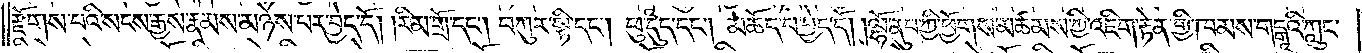རྫོགས་པའི་སངས་རྒྱས་རྣམས་མཉེས་པར་བྱེད་དོ། །རིམ་གྲོ་དང༌། བཀུར་སྟི་དང༌། ཕུ་དུད་དང༌། མཆོད་པ་བྱེད་དོ། །ལྷོ་ནུབ་ཀྱི་ཕྱོགས་མཚམས་ཀྱི་འཇིག་རྟེན་གྱི་ཁམས་གངྒཱའི་ཀླུང་
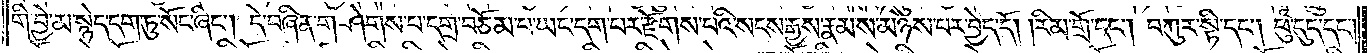གི་བྱེ་མ་སྙེད་དག་ཏུ་སོང་ཞིང༌། དེ་བཞིན་གཤེགས་པ་དགྲ་བཅོམ་པ་ཡང་དག་པར་རྫོགས་པའི་སངས་རྒྱས་རྣམས་མཉེས་པར་བྱེད་དོ། །རིམ་གྲོ་དང༌། བཀུར་སྟི་དང༌། ཕུ་དུད་དང༌།
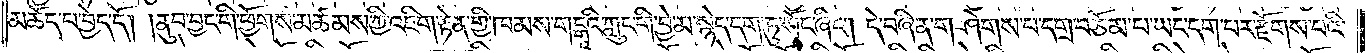མཆོད་པ་བྱེད་དོ། །ནུབ་བྱང་གི་ཕྱོགས་མཚམས་ཀྱི་འཇིག་རྟེན་གྱི་ཁམས་གངྒཱའི་ཀླུང་གི་བྱེ་མ་སྙེད་དག་ཏུ་སོང་ཞིང༌། དེ་བཞིན་གཤེགས་པ་དགྲ་བཅོམ་པ་ཡང་དག་པར་རྫོགས་པའི་
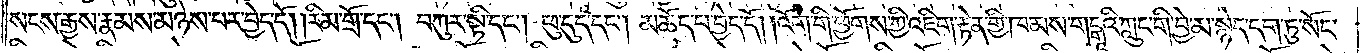སངས་རྒྱས་རྣམས་མཉེས་པར་བྱེད་དོ། །རིམ་གྲོ་དང༌། བཀུར་སྟི་དང༌། ཕུ་དུད་དང༌། མཆོད་པ་བྱེད་དོ། །འོག་གི་ཕྱོགས་ཀྱི་འཇིག་རྟེན་གྱི་ཁམས་གངྒཱའི་ཀླུང་གི་བྱེ་མ་སྙེད་དག་ཏུ་སོང་
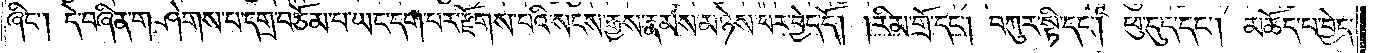ཞིང་༑ དེ་བཞིན་གཤེགས་པ་དགྲ་བཅོམ་པ་ཡང་དག་པར་རྫོགས་པའི་སངས་རྒྱས་རྣམས་མཉེས་པར་བྱེད་དོ། །རིམ་གྲོ་དང༌། བཀུར་སྟི་དང༌། ཕུ་དུད་དང༌། མཆོད་པ་བྱེད་
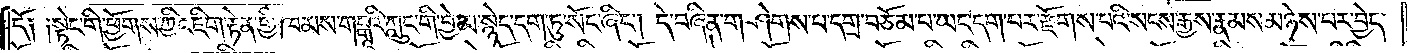དོ༑ ༑སྟེང་གི་ཕྱོགས་ཀྱི་འཇིག་རྟེན་གྱི་ཁམས་གངྒཱའི་ཀླུང་གི་བྱེ་མ་སྙེད་དག་ཏུ་སོང་ཞིང༌། དེ་བཞིན་གཤེགས་པ་དགྲ་བཅོམ་པ་ཡང་དག་པར་རྫོགས་པའི་སངས་རྒྱས་རྣམས་མཉེས་པར་བྱེད་
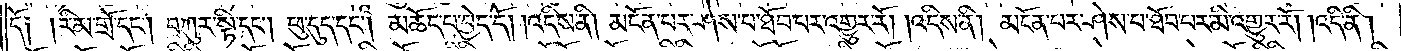དོ༑ །རིམ་གྲོ་དང༌། བཀུར་སྟི་དང༌། ཕུ་དུད་དང༌། མཆོད་པ་བྱེད་དོ། །འདིས་ནི། མངོན་པར་ཤེས་པ་ཐོབ་པར་འགྱུར་རོ། །འདིས་ནི། མངོན་པར་ཤེས་པ་ཐོབ་པར་མི་འགྱུར་རོ། །འདི་ནི།
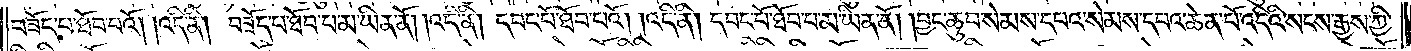བཟོད་པ་ཐོབ་པའོ། །འདི་ནི། བཟོད་པ་ཐོབ་པ་མ་ཡིན་ནོ། །འདི་ནི། དབང་པོ་ཐོབ་པའོ། །འདི་ནི། དབང་པོ་ཐོབ་པ་མ་ཡིན་ནོ། །བྱང་ཆུབ་སེམས་དཔའ་སེམས་དཔའ་ཆེན་པོ་འདིའི་སངས་རྒྱས་ཀྱི་
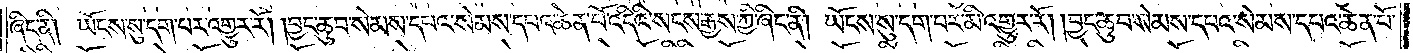ཞིང་ནི། ཡོངས་སུ་དག་པར་འགྱུར་རོ། །བྱང་ཆུབ་སེམས་དཔའ་སེམས་དཔའ་ཆེན་པོ་འདིའི་སངས་རྒྱས་ཀྱི་ཞིང་ནི། ཡོངས་སུ་དག་པར་མི་འགྱུར་རོ། །བྱང་ཆུབ་སེམས་དཔའ་སེམས་དཔའ་ཆེན་པོ་
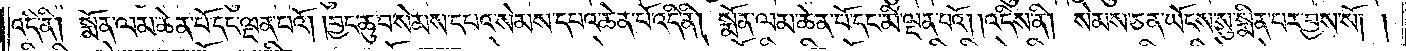འདི་ནི། སྨོན་ལམ་ཆེན་པོ་དང་ལྡན་པའོ། །བྱང་ཆུབ་སེམས་དཔའ་སེམས་དཔའ་ཆེན་པོ་འདི་ནི། སྨོན་ལམ་ཆེན་པོ་དང་མི་ལྡན་པའོ། །འདིས་ནི། སེམས་ཅན་ཡོངས་སུ་སྨིན་པར་བྱས་སོ། །
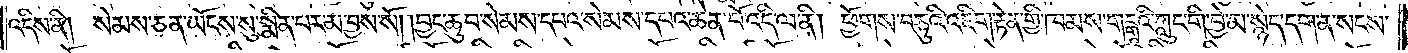འདིས་ནི། སེམས་ཅན་ཡོངས་སུ་སྨིན་པར་མ་བྱས་སོ། །བྱང་ཆུབ་སེམས་དཔའ་སེམས་དཔའ་ཆེན་པོ་འདི་ལ་ནི། ཕྱོགས་བཅུའི་འཇིག་རྟེན་གྱི་ཁམས་གངྒཱའི་ཀླུང་གི་བྱེ་མ་སྙེད་དག་ན་སངས་
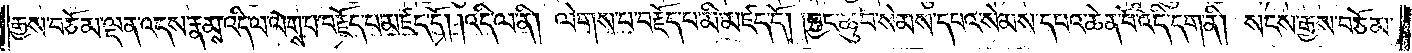རྒྱས་བཅོམ་ལྡན་འདས་རྣམས་འདི་ལ་ལེགས་པ་བརྗོད་པ་མཛད་དོ། །འདི་ལ་ནི། ལེགས་པ་བརྗོད་པ་མི་མཛད་དོ། །བྱང་ཆུབ་སེམས་དཔའ་སེམས་དཔའ་ཆེན་པོ་འདི་དག་ནི། སངས་རྒྱས་བཅོམ་
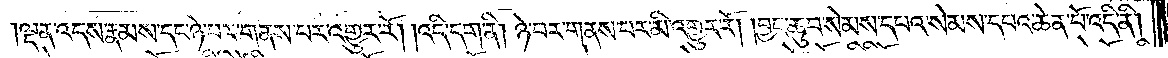ལྡན་འདས་རྣམས་དང་ཉེ་བར་གནས་པར་འགྱུར་རོ། །འདི་དག་ནི། ཉེ་བར་གནས་པར་མི་འགྱུར་རོ། །བྱང་ཆུབ་སེམས་དཔའ་སེམས་དཔའ་ཆེན་པོ་འདི་ནི།
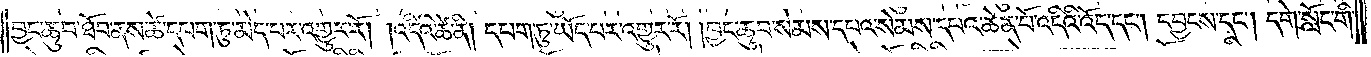བྱང་ཆུབ་ཐོབ་ནས་ཚེ་དཔག་ཏུ་མེད་པར་འགྱུར་རོ། །འདིའི་ཚེ་ནི། དཔག་ཏུ་ཡོད་པར་འགྱུར་རོ། །བྱང་ཆུབ་སེམས་དཔའ་སེམས་དཔའ་ཆེན་པོ་འདིའི་འོད་དང༌། དབྱངས་དང༌། དགེ་སློང་གི་
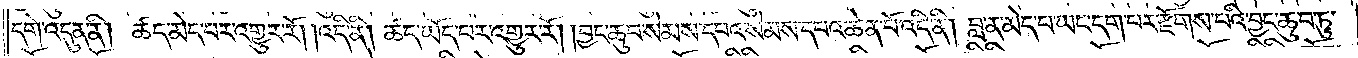དགེ་འདུན་ནི། ཚད་མེད་པར་འགྱུར་རོ། །འདི་ནི། ཚད་ཡོད་པར་འགྱུར་རོ། །བྱང་ཆུབ་སེམས་དཔའ་སེམས་དཔའ་ཆེན་པོ་འདི་ནི། བླ་ན་མེད་པ་ཡང་དག་པར་རྫོགས་པའི་བྱང་ཆུབ་ཏུ་
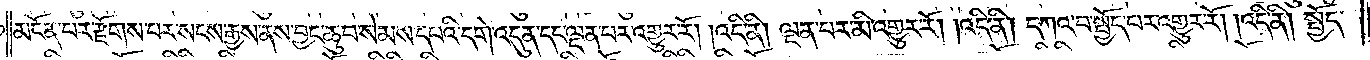མངོན་པར་རྫོགས་པར་སངས་རྒྱས་ནས་བྱང་ཆུབ་སེམས་དཔའི་དགེ་འདུན་དང་ལྡན་པར་འགྱུར་རོ། །འདི་ནི། ལྡན་པར་མི་འགྱུར་རོ། །འདི་ནི། དཀའ་བ་སྤྱོད་པར་འགྱུར་རོ། །འདི་ནི། སྤྱོད་
